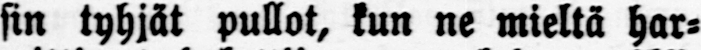sin tyhjät pullot, kun ne mieltä har-
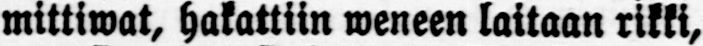mittivat, hakattiin weneen laitaan rikki,
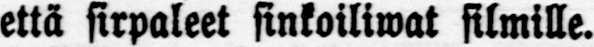että sirpaleet sinkoilivat silmille.
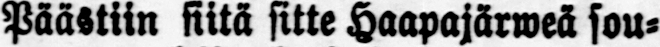Päästiin siitä sitte Haapajärweä sou-
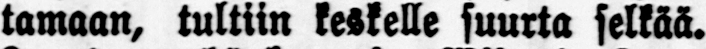tamaan, tultiin keskelle suurta selkää.
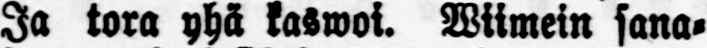Ja tora yhä kaswoi. Wiimein sana-
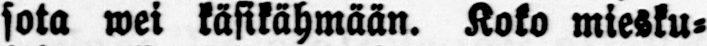sota wei käsikähmään. Koko miesku-
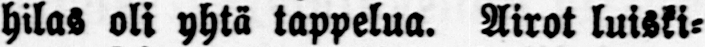hilas oli yhtä tappelua. Airot luiski-
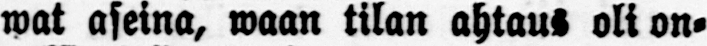wat aseina, waan tilan ahtaus oli on-
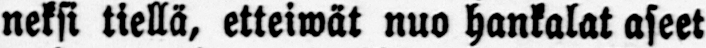neksi tiellä, etteiwät nuo hankalat aseet
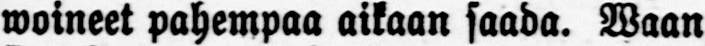woineet pahempaa aikaan saada. Waan
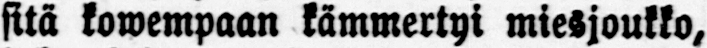sitä kowempaan kämmertyi miesjoukko,
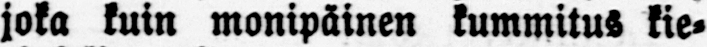joka kuin monipäinen kummitus kie-
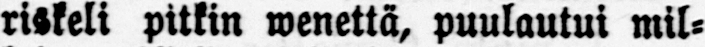riskeli pitkin wenettä, puulautui mil-
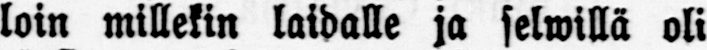loin millekin laidalle ja selwillä oli
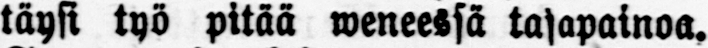täysi työ pitää weneessä tasapainoa.
